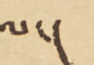ལ་།
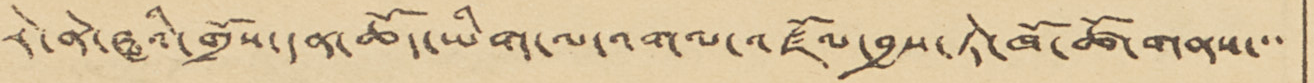རེ་ནེ་ཝའི་གྲོས་དན་ཆོད་ཡིག་ལ་འགལ་འཛོལབཡས་ཏེ་ཁོ་ཚོ་གནས་་་
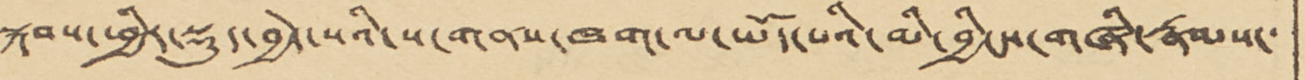སྐབས་ཕྱིར་སྡུད་བྱེད་པའི་ས་གནས་ཁག་ལ་ཡོད་པའི་མི་བྱིངས་གཞི་རྣམས་་
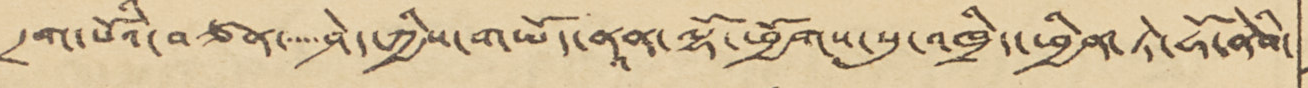དྲག་པོའི་བཙན་་་་་ཤེད་ཀྱིས་གཡོད་ནཱན་ལྷོ་ཕྱོགས་སུ་འཁྲིད་ཕྱིན་ཏེ་ཧོ་ནེའི་
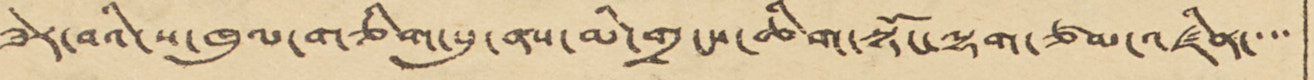ཟེར་བའི་ས་ཁུལ་གཅིག་པུ་ནས་མི་གྲངས་ཆིག་སྟོང་ལྷག་ཙམ་འཛིན་་་་
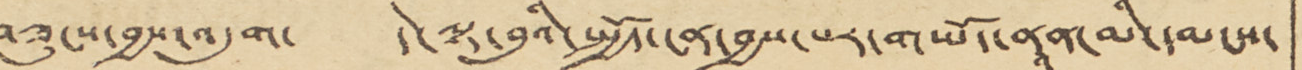བཟུངས་བྱས་འདུག་ དེ་ལྟ་བུའི་སྤྱོད་ངན་བྱས་པར་གཡོད་ནཱན་མི་དམངས་
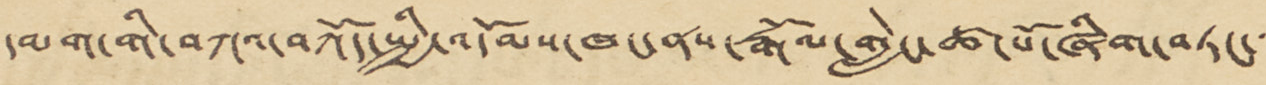དམག་གི་བཀའ་བཀོད་སྤྱི་འདོམས་ཁང་ནས་རྒོལ་གླེང་ཚ་པོ་ཞིག་བཏང་་་་
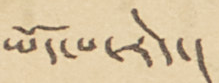ཡོད་པ་རེད་།
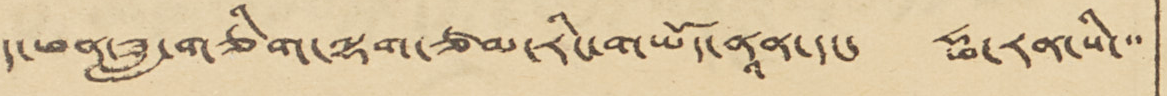ད་ཕན་ཟླ་གཅིག་ལྷག་ཙམ་རིང་གཡོད་ནཱན་དང་ ཧྥ་རན་སི་་་
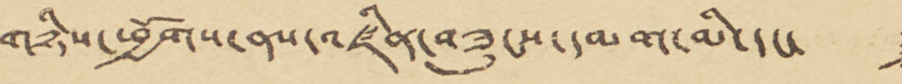གཉིས་ཕྱོགས་ནས་འཛིན་བཟུངས་དམག་མི་དང་
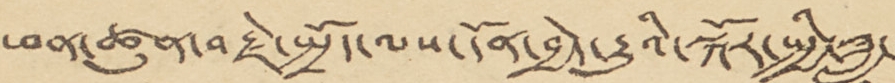ཕན་ཚུན་བརྗེ་སྤྲོད་ལས་དོན་བྱེད་རྒྱུའི་སྐོར་སྤྱི་ཟླ་
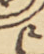༩
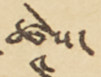ཚེས་
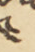༤
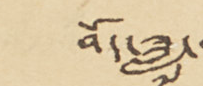བོད་ཟླ་
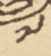༧
